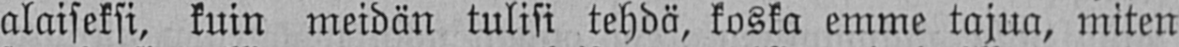alaiseksi, kuin meidän tulisi tehdä, koska emme tajua, miten
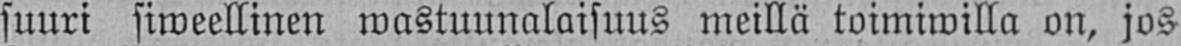suuri siweellinen wastuunalaisuus meillä toimiwilla on, jos
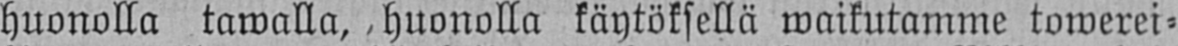huonolla tawalla, huonolla käytöksellä waikutamme towerei-
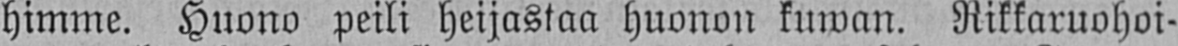himme. Huono peili heijastaa huonon kuwan. Rikkaruohoi-
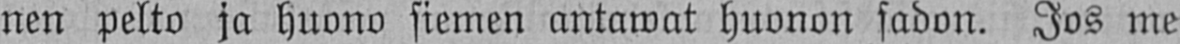nen pelto ja huono siemen antawat huonon sadon. Jos me
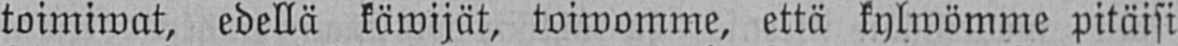toimiwat, edellä käwijät, toiwomme, että kylwömme pitäisi
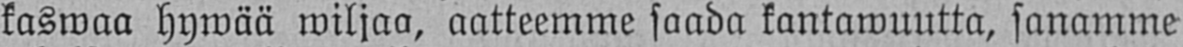kaswaa hywää wiljaa, aatteemme saada kantawuutta, sanamme
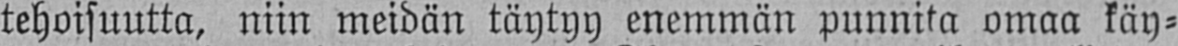tehoisuutta, niin meidän täytyy enemmän punnita omaa käy-
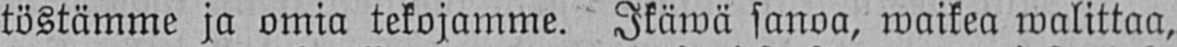töstämme ja omia tekojamme. Ikäwä sanoa, waikea walittaa,
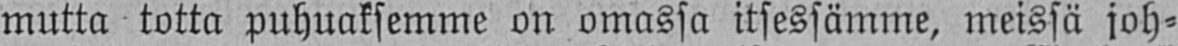mutta totta puhuaksemme on omassa itsessämme, meissä joh-
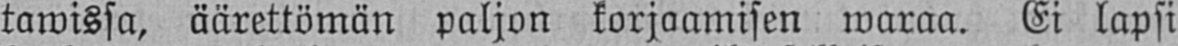tawissa, äärettömän paljon korjaamisen waraa. Ei lapsi
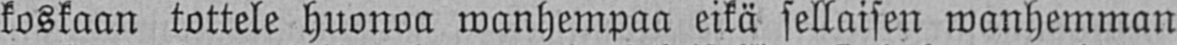koskaan tottele huonoa wanhempaa eikä sellaisen wanhemman
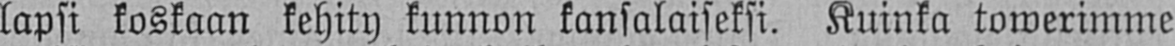lapsi koskaan kehity kunnon kansalaiseksi. Kuinka towerimme
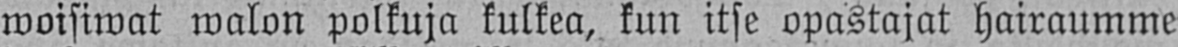woisiwat walon polkuja kulkea, kun itse opastajat hairaumme
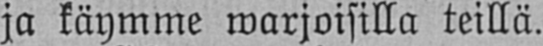ja käymme warjoisilla teillä.
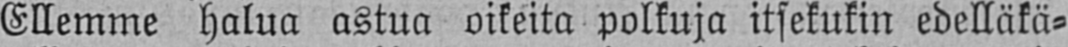Ellemme halua astua oikeita polkuja itsekukin edelläkä-
